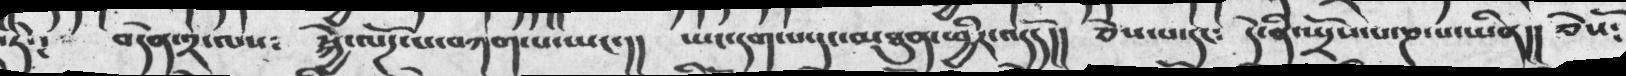་རེ་༴   བདེན་༢་ལས༴   སྐྱེ་ལོཌ་པ་བཀག་པ་ཡང་།།   ཡང་དག་པ་དང་མཐུན་ཕྱིར་འདོད།།   ཅེས་པ་དང༴    དེ་ནི་སྤྲོས་པ་ཎ་པ་ཡིན།།  ཅེསོ༴
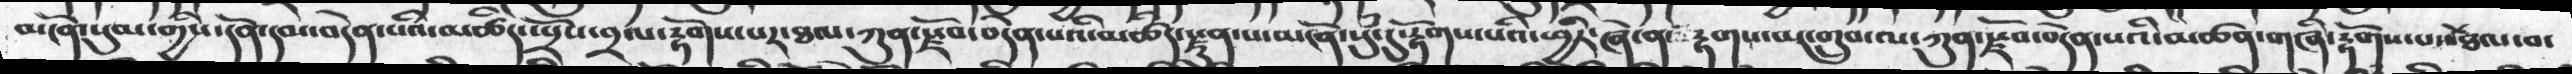མངོན་སུམ་གྱིས་དོན་དམ་བདེན་པའི་མཚིད་སྤྲོས་བྲལ་རྟོགས་པར་ཐལ་ཀུན་རྗོབ་བདེན་པའི་མཚིད་སྫུན་པ་མངོན་སུཾ་དུ་རྟོགས་པའི་ཕྱིར་ཞེས་  རྟགས་པར་གྲུབ་ལ་ཀུན་རྫོབ་བདེན་པའི་མཚན་གཞི་རྟོགས་པ་ཐལ་བ་
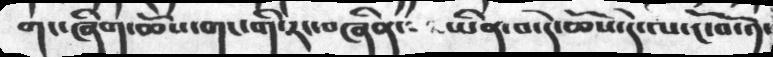གང་ཞིག་ཆོས་གང་གི་རང་བཞིན་  ཡིན་པ་དེ་ཆོས་དེ་ལ་ངོ་བ་༡་
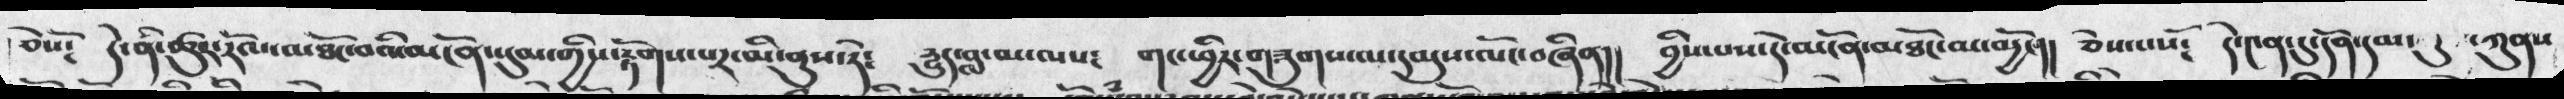ཅེསོ༴   དེ་ནི་ཚུར་རོལ་མཐོང་བའི་མངོན་སུམ་གྱི་རྟོགས་པར་མི་ནུས་ཏེ༴   དྱུད་བླ་མ་ལས༴   གང་ཕྱིར་གཟུགས་ལ་དམུས་ལོང་བཞིན།།  བྱིས་པས་དེ་མངོན་མཐོང་མ་མྱོང་།།   ཅེས་པསོ༴    དེ་༤ན་དུ་དོན་དམ་ དུ་ཀུནས
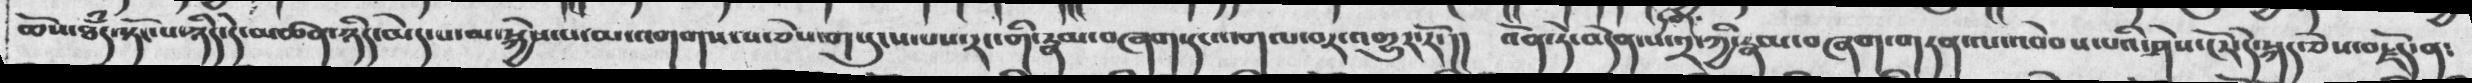ཆོས་ཐཾད་སྟོང་པ་ཉིད་དེ་མཚན་ཉིད་མེད་པ་མ་སྐྱེས་པ་མ་འགགས་པ་ཅེས་གསུངས་པས་རང་གི་རྣམ་བཞག་དང་འགལ་བར་འགྱུར་རོ་།།   འོན་ཏེ་བདེན་པ་༢་ཀྱི་རྣམ་བཞག་གཏན་ལ་ཕེབས་པའི་ཤེས་ངོར་དེ་སྐད་ཅེས་བརྗོད་ན༴
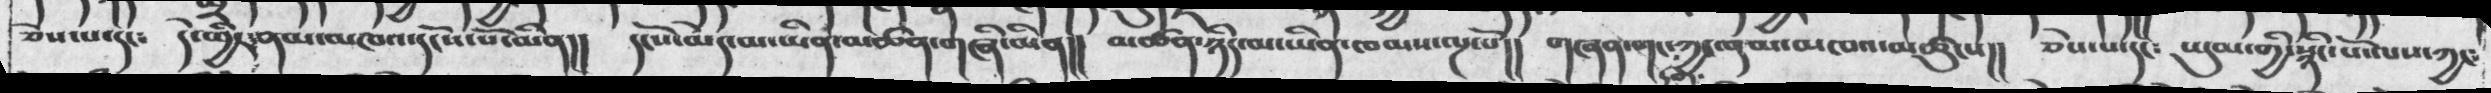ཅེས་པ་དང༴  དེ་ཕྱིར་ནམ་མཁའ་དངོས་པོ་མིན།།   དངོས་མེད་མ་ཡིན་མཚན་གཞི་མིན།།  མཚན་ཉིད་མ་ཡིན་ཁམས་ལྔ་པོ།།   གཞན་གང་དག་ཀྱང་ནམ་མཁའ་མཚུངས།།   ཅེས་པ་དང༴   ཡུམ་གྱི་སྙིང་པོ་ལས་ཀྱང༴
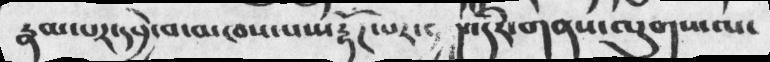རྣམ་པར་དབྱེ་བ་མཁས་པས་རྟོཌ་པར་བྱ།།འདིར་གནས་ལུགས་ལ་
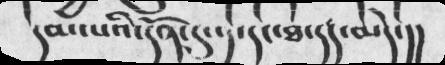དམ་པའི་དོན་དུ་ད་དང་ཐ་དད་མེད་།།
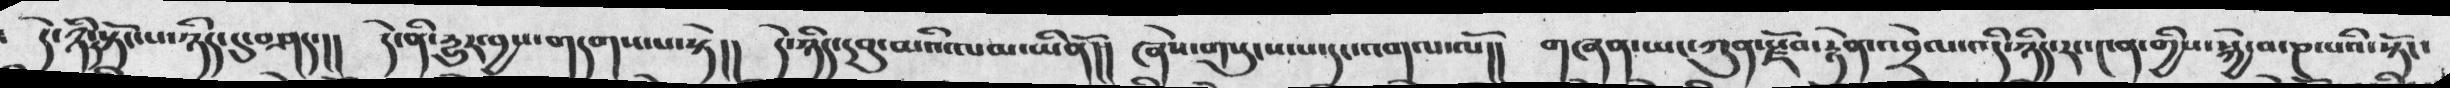དེ་ཉིད་སྟོང་པ་ཉིད་དུ་བཤད་།།   དེ་ནི་རྱུར་བྱས་གདགས་པ་སྟེ།།  དེ་ཉིད་དབུ་མའི་ལམ་ཡིནོ།།  ཞེས་གསུངས་པ་དང་འགལ་ལོ།།  གཞན་ཡང་ཀུན་རྫོབ་རྟེན་པ་འབྲེལ་འདི་ཉིད་རང་༩ན་གྱིས་སྐྱེ་བ་ཎ་པའི་སྟོང་
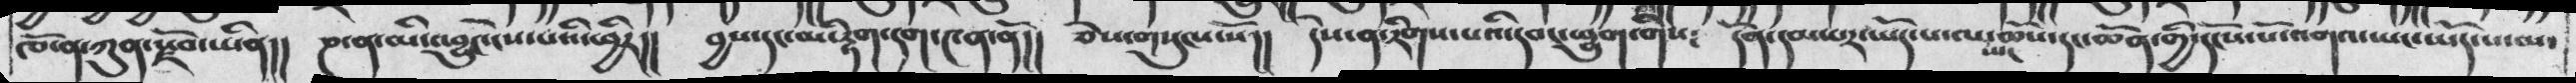ཁོ་ན་ཀུན་རྫོབ་ཡིན།།  ཎ་ན་མིང་བྱུང་ངེས་པའི་ཕྱིར།།   བྱས་དང་མི་རྟིག་དག་༩ན་ནོ།།  ཅེས་གསུངས་སོ།།  དེས་ན་རིགས་པའི་དབང་ཕྱུག་གིས༴  དོན་དམ་པར་ཡོད་པ་ལ་ཡང་ཆོས་དང་ཆོན་གྱི་དངོས་པོ་འགལ་ཡང་ཡོད་པ་མ་
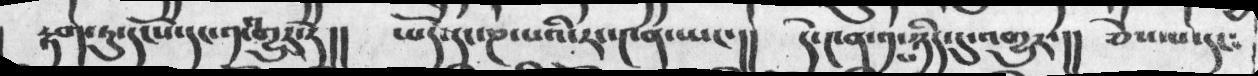རྟག་ཏུ་དངོས་དང་༡་འགྱུར་དེ།།   ཡོད་དང་ཎ་པའི་རང་༩ན་ཡང་།།    དེ་༩ན་༡་པ་ཉིད་དུ་འགྱུར་།།   ཅེས་པ་དང༴
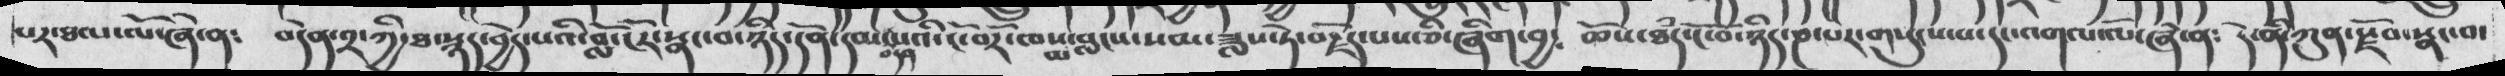པར་ཐལ་ལོ་ཞེ་ན༴  བདེན་༢་ཀྱི་ཐ་སྙད་བྱེད་པའི་བློ་ངོར་སྣང་བ་ཉིད་དོག་དམ་བདེན་པའི་ངོ་བོར་ཁས་མ་བླངས་སམ་ཟླས་ཏེ་བརྗོད་པས་ཅི་ཞིག་བྱ༴  ཆོས་ཐཾད་ངོ་བོ་ཉིད་ཎ་པར་གསུངས་པ་དང་འགལ་ལོ་ཞེ་ན༴  དེ་ནི་ཀུན་རྫོབ་སྣང་བ་
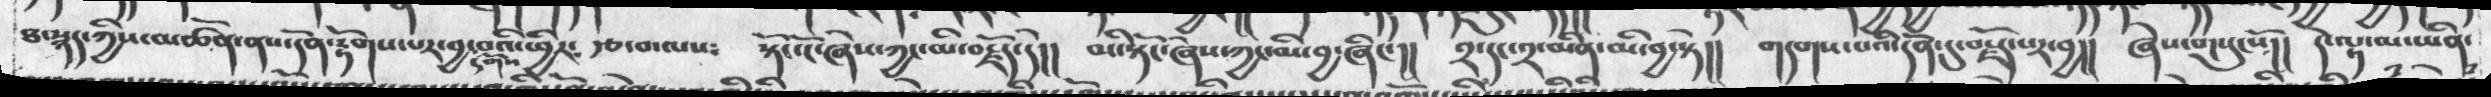ཐ་སྙད་ཀྱིས་མཚོན་ནས་དོན་རྟོགས་པར་བྱ་དགོས་བའི་ཕྱིར༴  རྩ་བ་ལས༴  སྟོང་ངོ་ཞེས་ཀྱང་མི་བྱ་ཞིང་།།   ༢་དང་༢་མིན་མི་བྱ་སྟེ།།   གཏགས་པའི་དོན་དུ་བརྗོད་པར་བྱ།།  ཞེས་གསུངསོ།།  དེ་ལྟ་མ་ཡིན་
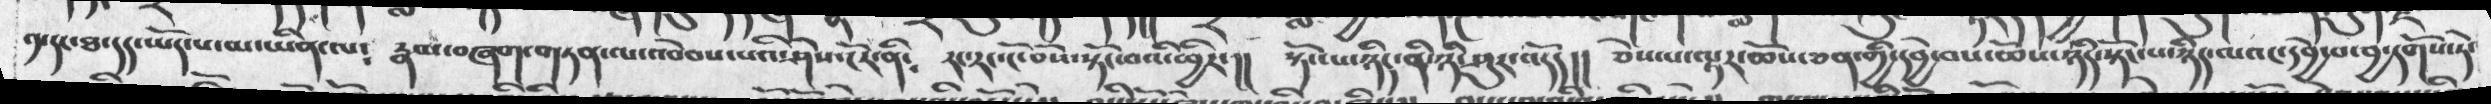༡་དང་ཐ་དད་ཡོད་པ་མ་ཡིན་ལ༴  རྣམ་བཞག་གཏན་ལ་འབེབས་པའི་ཤེས་ངོར་ནི༴  རང་རང་ངོ་བོས་སྟོང་བའི་ཕྱིར་།།   སྟོང་པ་ཉིད་ནི་ཉི་ཤུར་འདོད།།  ཅེས་པ་ལྟར་ཆོས་ཅན་གྱི་དབྱེ་བས་ཆོས་ཉིད་སྟོང་པ་ཉིད་ལའང་དབྱེ་བ་བྱ་དགོས་ཏེ་
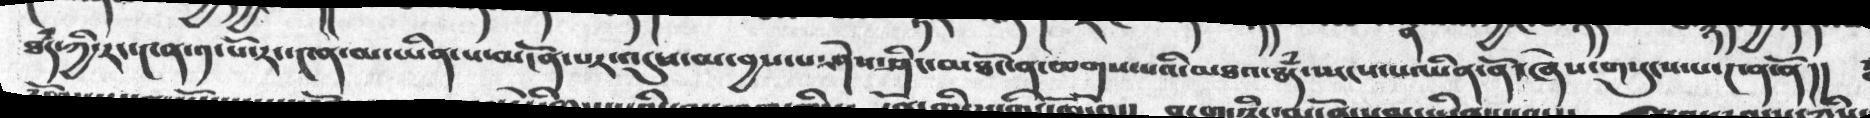ཐཾད་ཀྱི་རང་༩ན་༡་པོ་རང་༩ན་མ་ཡིན་པ་མངོན་པར་འདུས་མ་བྱས་པ་ཤེས་ཤིང་མཐོང་ན་ཆགས་པའི་མཐའ་ཐཾད་སྤངས་པ་ཡིན་ནོ་ཞེས་གསུངས་པ་༩ན་ནོ།།
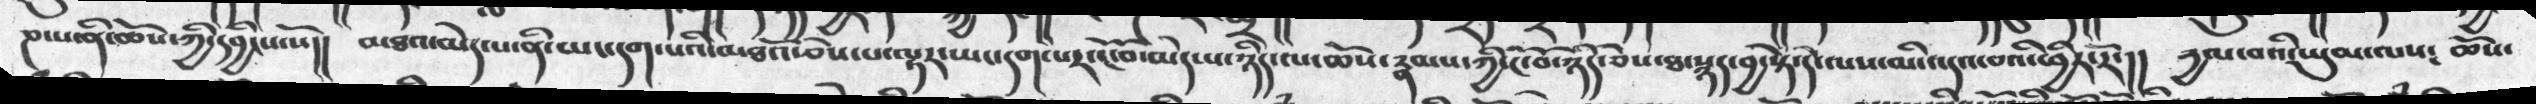ཎ་པ་ནི་ཆོས་ཀྱི་དབྱིངས་སོ།།  མཐའ་མེད་པ་ནི་ཡང་དག་པའི་མཐའ་ཅེས་པ་ལྟར་ཡང་དག་པར་ངོ་བོ་མེད་པ་ཉིད་ལ་ཆོས་རྣམས་ཀྱི་ངོ་བོ་ཉིད་ཅེས་ཐ་སྙད་བྱ་སྟེ་དེ་ལས་མི་འདའ་བའི་ཕྱིར་རོ་།།  རྱལ་བའི་ཡུམ་ལས༴  ཆོས་
